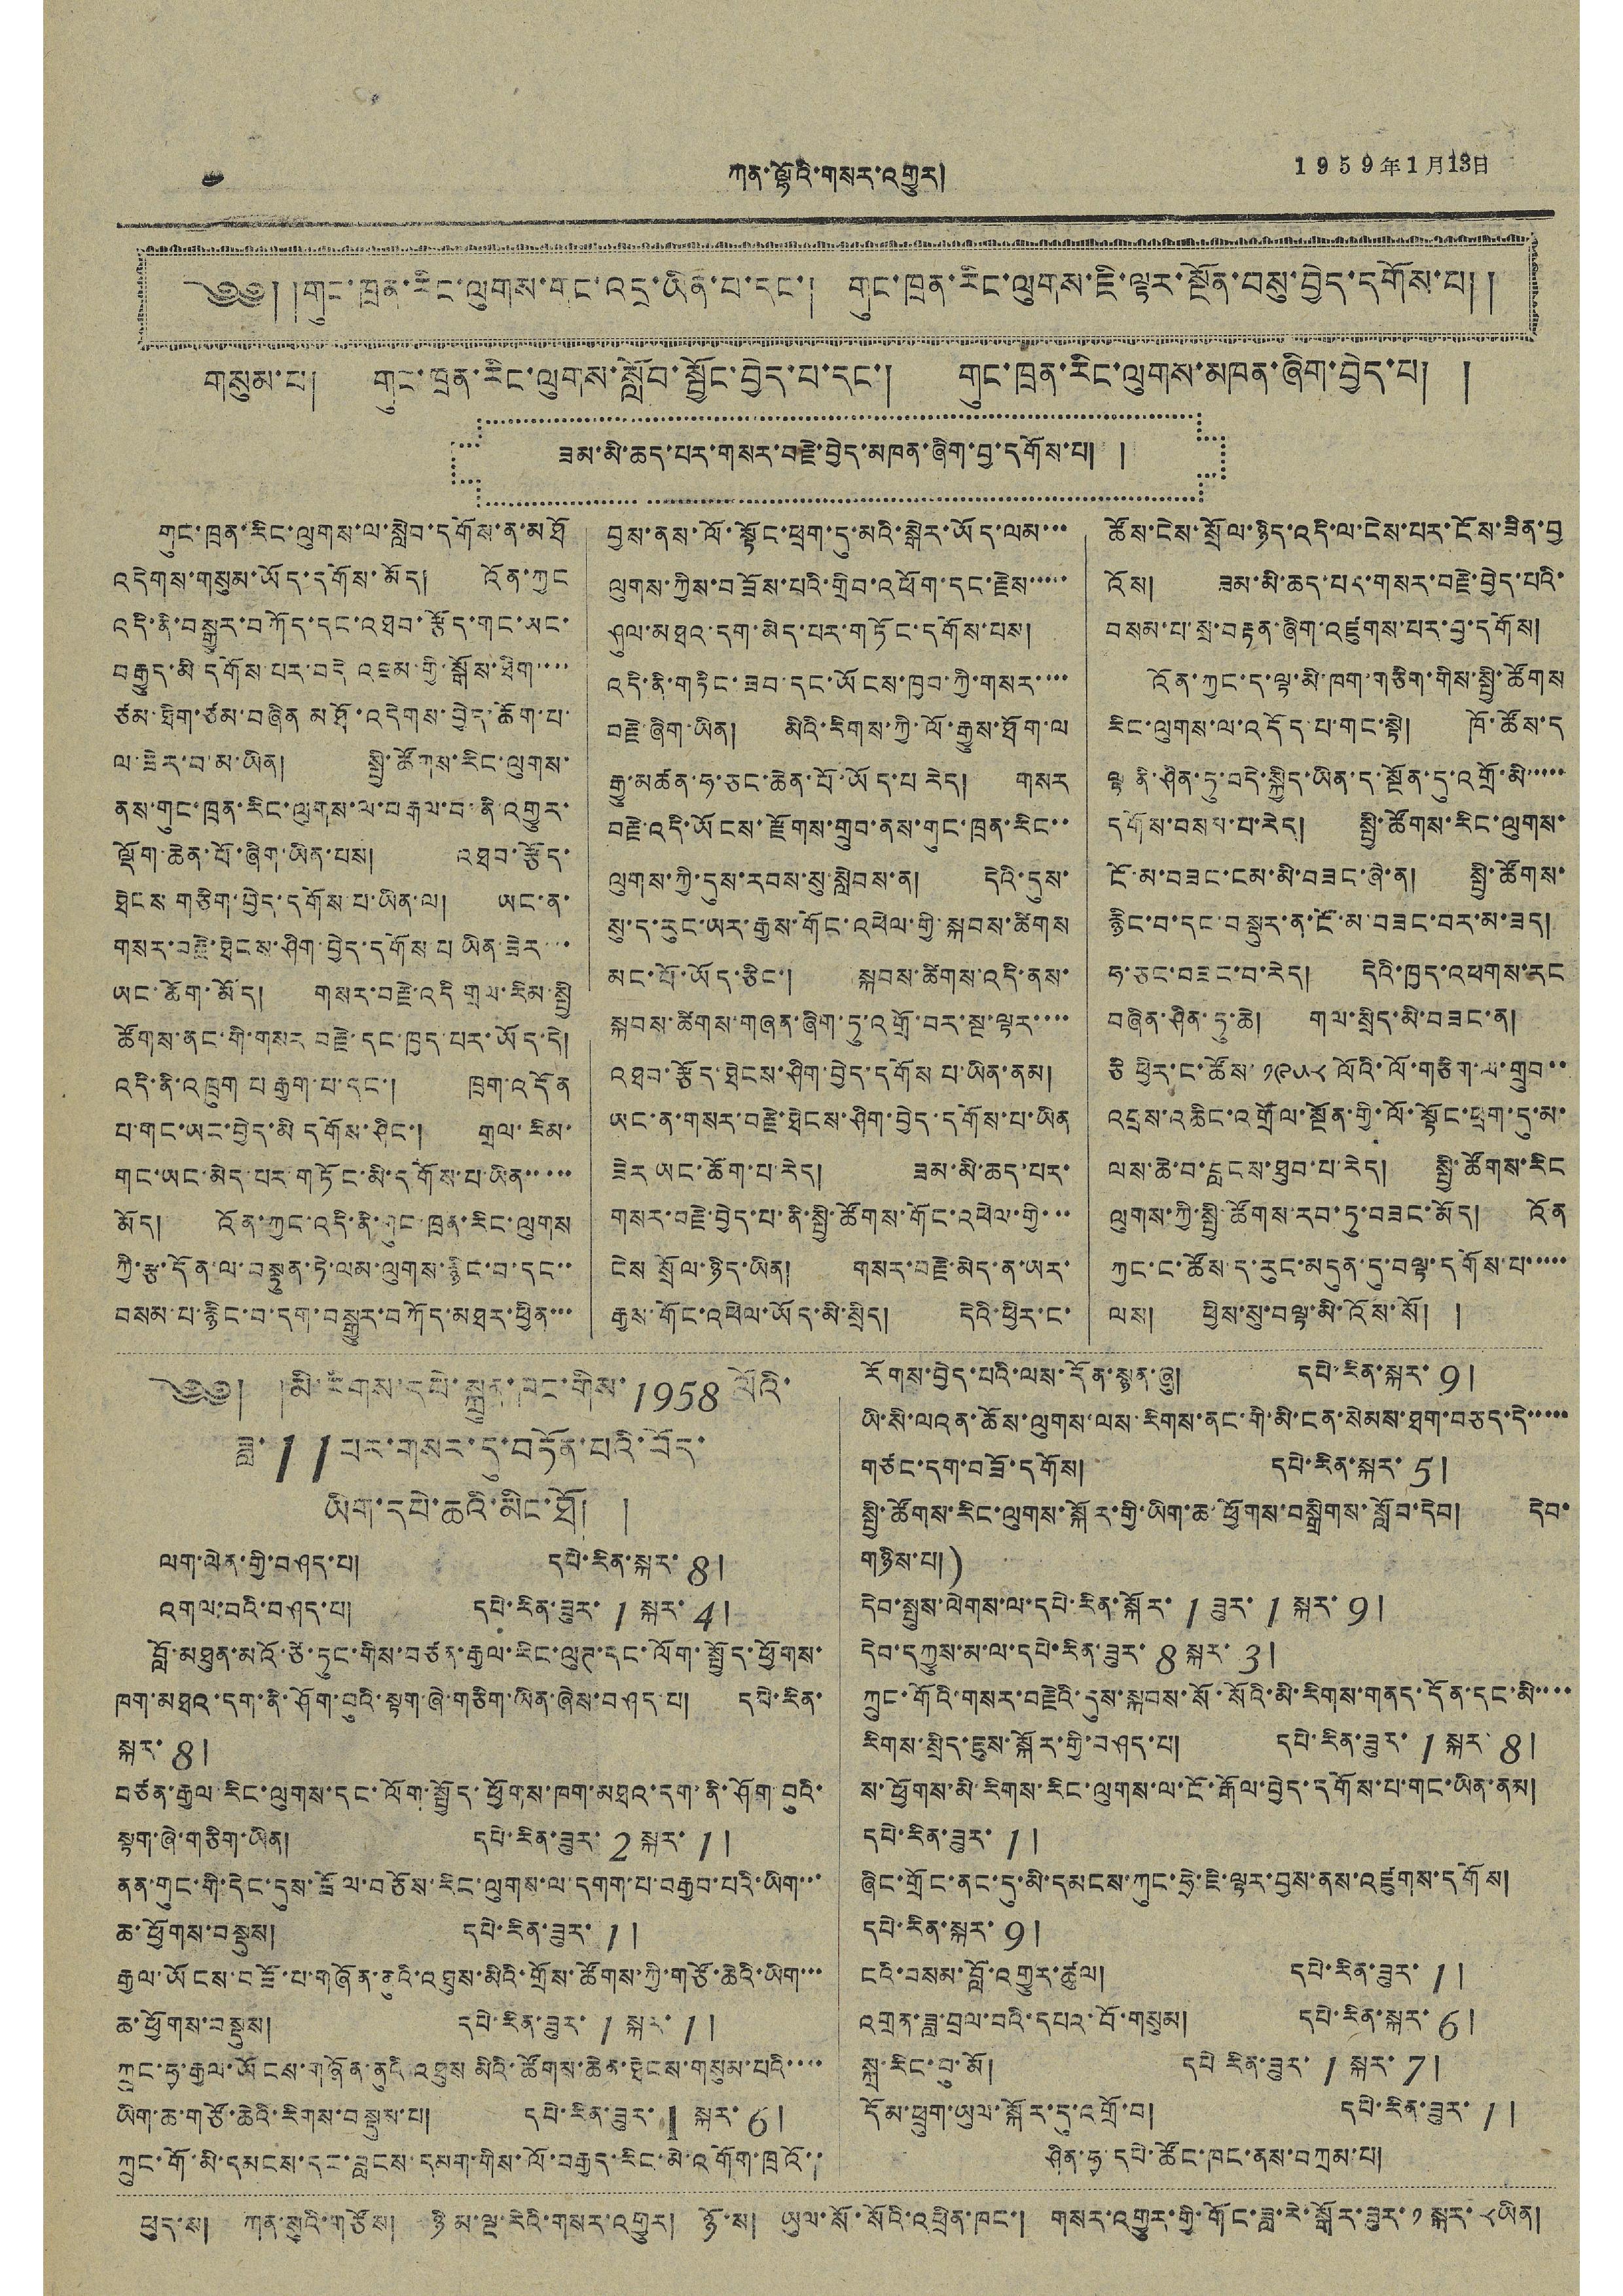༤ ཀན་ལྷའི་གསར་འགྱུར། 1959年1月13日
༄༅། །གུང་ཁྲན་རིང་ལུགས་གང་འདྲ་ཡིན་པ་དང་། གུང་ཁྲན་རིང་ལུགས་ཇི་ལྟར་སྔོན་བསུ་བྱེད་དགོས་པ། །
གསུམ་པ། གུང་ཁྲན་རིང་ལུགས་སློབ་སྦྱོང་བྱེད་པ་དང་། གུང་ཁྲན་རིང་ལུགས་མཁན་ཞིག་བྱེད་པ། །
ཟམ་མི་ཆད་པར་གསར་བརྗེ་བྱེད་མཁན་ཞིག་བྱ་དགོས་པ། །
གུང་ཁྲན་རིང་ལུགས་ལ་སླེབ་དགོས་ན་མཐོ
འདེགས་གསུམ་ཡོད་དགོས་མོད། འོན་ཀྱང
འདི་ནི་བསྒྱུར་བཀོད་དང་འཐབ་རྩོད་གང་ཡང་
བརྒྱུད་མི་དགོས པར་བདེ འཇམ་གྱི་སྒོས་ཐིག་་་་
ཙམ་ཐིག་ཙམ་བཞིན མཐོ་འདེགས་བྱེད་ཆོག་པ་
ལ་ཟེར་བ་མ་ཡིན། སྤྱི་ཚོགས་རིང་ལུགས་
ནས་གུང་ཁྲན་རིང་ལུགས་ལ་བརྒལ་བ་ནི་འགྱུར་
ལྡོག་ཆེན་པོ་ཞིག་ཡིན་པས། འཐབ་རྩོད་
ཐེངས་གཅིག་བྱེད་དགོས་པ་ཡིན་ལ། ཡང་ན་
གསར་བརྗེ་ཐེངས་ཤིག་བྱེད་དགོས་པ ཡིན་ཟེར་་་
ཡང་ཆོག་མོད། གསར་བརྗེ་འདི གྲལ་རིམ་སྤྱི
ཚོགས་ནང་གི་གསར བརྗེ་དང་ཁྱད་པར་ཡོད་དེ།
འདི་ནི་འཁྲུག པ རྒྱག་པ་དང་། ཁྲག་འདོན
པ་གང་ཡང་བྱེད་མི དགོས་ཤིང་། གྲལ་རིམ་
གང་ཡང་མེད་པར་གཏོང་མི་དགོས་པ་ཡིན་་་་་
མོད། འོན་ཀྱང་འདི་ནི་གུང་ཁྲན་རིང་ལུགས
ཀྱི་རྩ་དོན་ལ་བསྟུན་ཏེ་ལམ་ལུགས་རྙིང་བ་དང་་
བསམ་པ་རྙིང་བ་དག་བསྒྱུར་བཀོད་མཐར་ཕྱིན་་་
བྱས་ནས་ལོ་སྟོང་ཕྲག་དུ་མའི་སྒེར་ཡོད་ལམ་་་
ལུགས་ཀྱིས་བཟོས་པའི་གྲིབ་འཕོག་དང་རྗེས་་་་་
ཤུལ་མཐའ་དག་མེད་པར་གཏོང་དགོས་པས།
འདི་ནི་གཏིང་ཟབ་དང་ཡོངས་ཁྱབ་ཀྱི་གསར་་་་
བརྗེ་ཞིག་ཡིན། མིའི་རིགས་ཀྱི་ལོ་རྒྱུས་ཐོག་ལ
རྒྱུ་མཚན་ཧ་ཅང་ཆེན་པོ་ཡོད་པ རེད། གསར
བརྗེ་འདི་ཡོངས་རྫོགས་གྲུབ་ནས་གུང་ཁྲན་རིང་་
ལུགས་ཀྱི་དུས་རབས་སུ་སླེབས་ན། དེའི་དུས
སུ་ད་རུང་ཡར་རྒྱས་གོང་འཕེལ་གྱི་སྐབས་ཚིགས
མང་པོ་ཡོད་ཅིང་། སྐབས་ཚིགས་འདི་ནས་
སྐབས་ཚིགས་གཞན་ཞིག་ཏུ་འགྲོ་བར་སྔ་ལྟར་་་་
འཐབ་རྩོད་ཐེངས་ཤིག་བྱེད་དགོས་པ་ཡིན་ནམ།
ཡང་ན་གསར་བརྗེ་ཐེངས་ཤིག་བྱེད་དགོས་པ་ཡིན
ཟེར ཡང་ཆོག་པ་རེད། ཟམ་མི་ཆད་པར་
གསར་བརྗེ་བྱེད་པ་ནི་སྤྱི་ཚོགས་གོང་འཕེལ་གྱི་་་
ངེས སྲོལ་ཉིད་ཡིན། གསར་བརྗེ་མེད་ན་ཡར་
རྒྱས་གོང་འཕེལ་ཡོད་མི་སྲིད། དེའི་ཕྱིར་ང་
ཚོས་ངེས་སྲོལ་ཉིད་འདི་ལ་ངེས་པར་ངོས་ཟིན་བྱ
འོས། ཟམ་མི་ཆད་པར་གསར་བརྗེ་བྱེད་པའི་
བསམ་པ་སྲ་བརྟན་ཞིག་འཛུགས་པར་བྱ་དགོས།
འོན་ཀྱང་ད་ལྟ་མི་ཁག་གཅིག་གིས་སྤྱི་ཚོགས
རིང་ལུགས་ལ་འདོད་པ་གང་སྟེ། ཁོ་ཚོས་ད
ལྟ ནི་ཤིན་ཏུ་བདེ་སྐྱིད་ཡིན་ད་སྔོན་དུ་འགྲོ་མི་་་་་
དགོས་བསམ་པ་རེད། སྤྱི་ཚོགས་རིང་ལུགས་
ངོ་མ་བཟང་ངམ་མི་བཟང་ཞེ་ན། སྤྱི་ཚོགས་
རྙིང་བ་དང་བསྡུར་ན་ངོ་མ་བཟང་བར་མ་ཟད།
ཧ་ཅང་བཟང་བ་རེད། དེའི་ཁྱད་འཕགས་རང
བཞིན་ཤིན་ཏུ་ཆེ། གལ་སྲིད་མི་བཟང་ན།
ཅི ཕྱིར་ང་ཚོས་ ༡༩༥༨ ལོའི་ལོ་གཅིག་ལ་གྲུབ་་
འབྲས་འཆིང་འགྲོལ་སྔོན་གྱི་ལོ་སྟོང་ཕྲག་དུ་མ་
ལས་ཆེ་བ་བླངས་ཐུབ་པ་རེད། སྤྱི་ཚོགས་རིང
ལུགས་ཀྱི་སྤྱི་ཚོགས་རབ་ཏུ་བཟང་མོད། འོན
ཀྱང་ང་ཚོས་ད་རུང་མདུན་དུ་བལྟ་དགོས་པ་་་་་
ལས། ཕྱིས་སུ་བལྟ་མི་འོས་སོ། །
༄༅། །མི་རིགས་དཔེ་སྐྲུན་ཁང་གིས་1958 ལོའི་
ཟླ་11པར་གསར་དུ་བཏོན་པའི་བོད་
ཡིག་དཔེ་ཆའི་མིང་ཐོ། །
ལག་ལེན་གྱི་བཤད་པ། དཔེ་རིན་སྐར་ 8།
འགལ་བའི་བཤད་པ། དཔེ་རིན་ཟུར་ 1 སྐར་ 4།
བློ་མཐུན་མའོ་ཙེ་ཏུང་གིས་བཙན་རྒྱལ་རིང་ལུཊ་དང་ལོག་སྤྱོད་ཕྱོགས་
ཁག་མཐའ་དག་ནི་ཤོག་བུའི་སྟག་ཞེ་གཅིག་ཡིན་ཞེས་བཤད་པ། དཔེ་རིན་
སྐར་ 8།
བཙན་རྒྱལ་རིང་ལུགས་དང་ལོག་སྤྱོད་ཕྱོགས་ཁག་མཐའ་དག་ནི་ཤོག་བུའི་
སྟག་ཞེ་གཅིག་ཡིན། དཔེ་རིན་ཟུར་ 2 སྐར་ 1།
ནན་གུང་གི་དེང་དུས་ཟོལ་བཅོས་རིང་ལུགས་ལ་དགག་པ་བརྒྱབ་པའི་ཡིག་་་
ཆ་ཕྱོགས་བསྡུས། དཔེ་རིན་ཟུར་ 1།
རྒྱལ་ཡོངས་བཟོ་པ་གཞོན་ནུའི་འཐུས་མིའི་གྲོས་ཚོགས་ཀྱི་གཙོ་ཆེའི་ཡིག་་་
ཆ་ཕྱོགས་བསྡུས། དཔེ་རིན་ཟུར་ 1 སྐར་ 1།
ཀྲུང་ཧྭ་རྒྱལ་ཡོངས་གཞོན་ནུའི་འཐུས་མིའི་ཚོགས་ཆེན་ཐེངས་གསུམ་པའི་་་་
ཡིག་ཆ་གཙོ་ཆེའི་རིགས་བསྡུས་པ། དཔེ་རིན་ཟུར་ 1 སྐར་ 6།
ཀྲུང་གོ་མི་དམངས་དང་བླངས་དམག་གིས་ལོ་བརྒྱད་རིང་མེ་འགོག་ཁྲའོ་་
རོགས་བྱེད་པའི་ལས་དོན་སྙན་ཞུ། དཔེ་རིན་སྐར་ 9།
ཡི་སི་ལའན་ཆོས་ལུགས་ལས་རིགས་ནང་གི་མི་ངན་སེམས་ཐག་བཅད་དེ་་་་་
གཙང་དག་བཟོ་དགོས། དཔེ་རིན་སྐར་ 5།
སྤྱི་ཚོགས་རིང་ལུགས་སྐོར་གྱི་ཡིག་ཆ་ཕྱོགས་བསྒྲིགས་སློབ་དེབ། དེབ་
གཉིས་པ།)
དེབ་སྤུས་ལེགས་ལ་དཔེ་རིན་སྐོར་ 1 ཟུར་ 1 སྐར་ 9།
དེབ་དཀྱུས་མ་ལ་དཔེ་རིན་ཟུར་ 8 སྐར་ 3།
ཀྲུང་གོའི་གསར་བརྗེའི་དུས་སྐབས་སོ་སོའི་མི་རིགས་གནད་དོན་དང་མི་་་་
རིགས་སྲིད་ཇུས་སྐོར་གྱི་བཤད་པ། དཔེ་རིན་ཟུར་ 1 སྐར་ 8།
ས་ཕྱོགས་མི་རིགས་རིང་ལུགས་ལ་ངོ་རྒོལ་བྱེད་དགོས་པ་གང་ཡིན་ནམ།
དཔེ་རིན་ཟུར་ 1།
ཞིང་གྲོང་ནང་དུ་མི་དམངས་ཀུང་ཧྲེ་ཇི་ལྟར་བྱས་ནས་འཛུགས་དགོས།
དཔེ་རིན་སྐར་ 9།
ངའི་བསམ་བློ་འགྱུར་ཚུལ། དཔེ་རིན་ཟུར་ 1།
འགྲན་ཟླ་བྲལ་བའི་དཔའ་བོ་གསུམ། དཔེ་རིན་སྐར་ 6།
སྐྲ་རིང་བུ་མོ། དཔེ་རིན་ཟུར་ 1 སྐར་ 7།
དོམ་ཕྲུག་ཡུལ་སྐོར་དུ་འགྲོ་བ། དཔེ་རིན་ཟུར་ 1།
ཤིན་ཧྭ་དཔེ་ཚོང་ཁང་ནས་བཀྲམ་པ།
ཕུད་ས། ཀན་སུའི་གཙོས། ཉི་མ་ལྔ་རེའི་གསར་འགྱུར། ཉོ་ས། ཡུལ་སོ་སོའི་འཕྲིན་ཁང་། གསར་འགྱུར་གྱི་གོང་ཟླ་རེ་སྒོར་ཟུར་ ༡ སྐར་ ༨ ཡིན།
